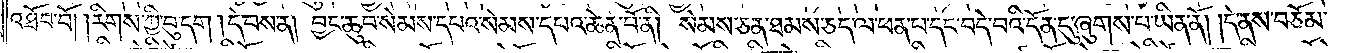འཐོབ་བོ། །རིགས་ཀྱི་བུ་དག །དེ་བས་ན། བྱང་ཆུབ་སེམས་དཔའ་སེམས་དཔའ་ཆེན་པོ་ནི། སེམས་ཅན་ཐམས་ཅད་ལ་ཕན་པ་དང་བདེ་བའི་དོན་དུ་ཞུགས་པ་ཡིན་ནོ། །དེ་ནས་བཅོམ་
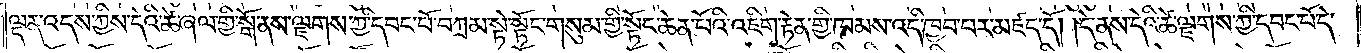ལྡན་འདས་ཀྱིས་དེའི་ཚེ་ཞལ་གྱི་སྒོ་ནས་ལྗགས་ཀྱི་དབང་པོ་བཀྲམ་སྟེ་སྟོང་གསུམ་གྱི་སྟོང་ཆེན་པོའི་འཇིག་རྟེན་གྱི་ཁམས་འདི་ཁྱབ་པར་མཛད་དོ། །དེ་ནས་དེའི་ཚེ་ལྗགས་ཀྱི་དབང་པོ་དེ་
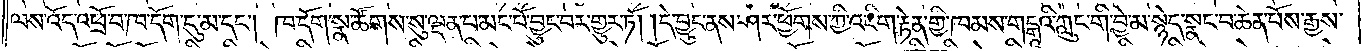ལས་འོད་འཕྲོ་བ་ཁ་དོག་དུ་མ་དང༌། ཁ་དོག་སྣ་ཚོགས་སུ་ལྡན་པ་མང་པོ་བྱུང་བར་གྱུར་ཏོ། །དེ་བྱུང་ནས་ཤར་ཕྱོགས་ཀྱི་འཇིག་རྟེན་གྱི་ཁམས་གངྒཱའི་ཀླུང་གི་བྱེ་མ་སྙེད་སྣང་བ་ཆེན་པོས་རྒྱས་
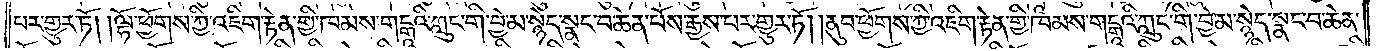པར་གྱུར་ཏོ། །ལྷོ་ཕྱོགས་ཀྱི་འཇིག་རྟེན་གྱི་ཁམས་གངྒཱའི་ཀླུང་གི་བྱེ་མ་སྙེད་སྣང་བ་ཆེན་པོས་རྒྱས་པར་གྱུར་ཏོ། །ནུབ་ཕྱོགས་ཀྱི་འཇིག་རྟེན་གྱི་ཁམས་གངྒཱའི་ཀླུང་གི་བྱེ་མ་སྙེད་སྣང་བ་ཆེན་
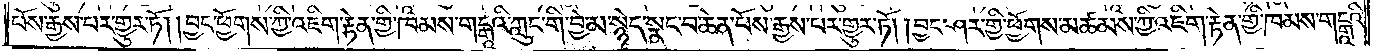པོས་རྒྱས་པར་གྱུར་ཏོ། །བྱང་ཕྱོགས་ཀྱི་འཇིག་རྟེན་གྱི་ཁམས་གངྒཱའི་ཀླུང་གི་བྱེ་མ་སྙེད་སྣང་བ་ཆེན་པོས་རྒྱས་པར་གྱུར་ཏོ། །བྱང་ཤར་གྱི་ཕྱོགས་མཚམས་ཀྱི་འཇིག་རྟེན་གྱི་ཁམས་གངྒཱའི་
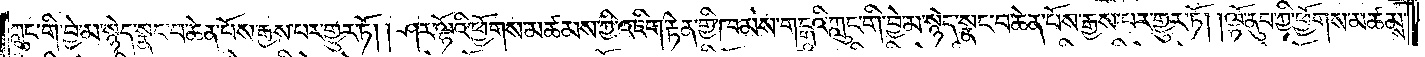ཀླུང་གི་བྱེ་མ་སྙེད་སྣང་བ་ཆེན་པོས་རྒྱས་པར་གྱུར་ཏོ། །ཤར་ལྷོའི་ཕྱོགས་མཚམས་ཀྱི་འཇིག་རྟེན་གྱི་ཁམས་གངྒཱའི་ཀླུང་གི་བྱེ་མ་སྙེད་སྣང་བ་ཆེན་པོས་རྒྱས་པར་གྱུར་ཏོ། །ལྷོ་ནུབ་ཀྱི་ཕྱོགས་མཚམས་
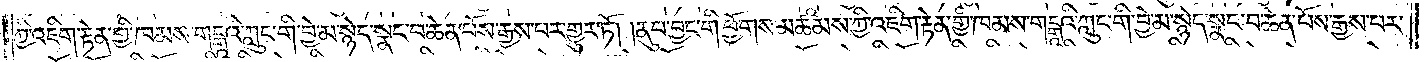ཀྱི་འཇིག་རྟེན་གྱི་ཁམས་གངྒཱའི་ཀླུང་གི་བྱེ་མ་སྙེད་སྣང་བ་ཆེན་པོས་རྒྱས་པར་གྱུར་ཏོ། །ནུབ་བྱང་གི་ཕྱོགས་མཚམས་ཀྱི་འཇིག་རྟེན་གྱི་ཁམས་གངྒཱའི་ཀླུང་གི་བྱེ་མ་སྙེད་སྣང་བ་ཆེན་པོས་རྒྱས་པར་
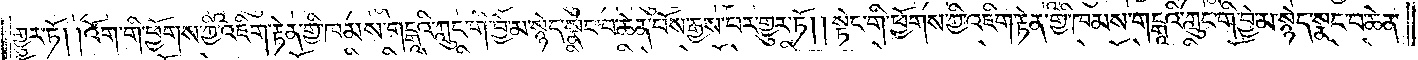གྱུར་ཏོ། །འོག་གི་ཕྱོགས་ཀྱི་འཇིག་རྟེན་གྱི་ཁམས་གངྒཱའི་ཀླུང་གི་བྱེ་མ་སྙེད་སྣང་བ་ཆེན་པོས་རྒྱས་པར་གྱུར་ཏོ། །སྟེང་གི་ཕྱོགས་ཀྱི་འཇིག་རྟེན་གྱི་ཁམས་གངྒཱའི་ཀླུང་གི་བྱེ་མ་སྙེད་སྣང་བ་ཆེན་
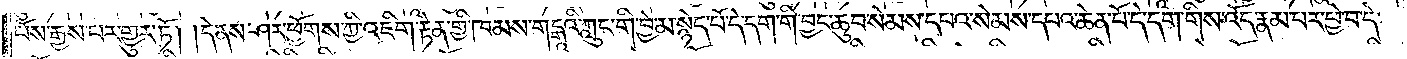པོས་རྒྱས་པར་གྱུར་ཏོ། །དེ་ནས་ཤར་ཕྱོགས་ཀྱི་འཇིག་རྟེན་གྱི་ཁམས་གངྒཱའི་ཀླུང་གི་བྱེ་མ་སྙེད་པོ་དེ་དག་གི་བྱང་ཆུབ་སེམས་དཔའ་སེམས་དཔའ་ཆེན་པོ་དེ་དག་གིས་འོད་རྣམ་པར་ཕྱེ་བ་དེ་
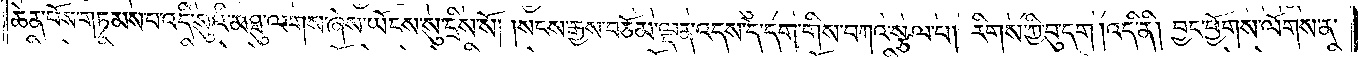ཆེན་པོས་གཏམས་པ་འདི་སུའི་མཐུ་ལགས་ཞེས་ཡོངས་སུ་དྲིས་སོ། །སངས་རྒྱས་བཅོམ་ལྡན་འདས་དེ་དག་གིས་བཀའ་སྩལ་པ། རིགས་ཀྱི་བུ་དག །འདི་ནི། བྱང་ཕྱོགས་ལོགས་ན་
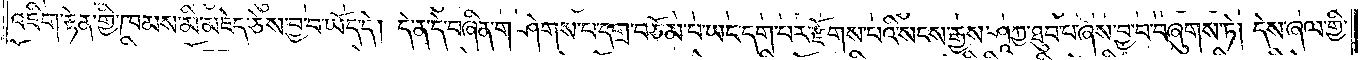འཇིག་རྟེན་གྱི་ཁམས་མི་མཇེད་ཅེས་བྱ་བ་ཡོད་དེ། དེ་ན་དེ་བཞིན་གཤེགས་པ་དགྲ་བཅོམ་པ་ཡང་དག་པར་རྫོགས་པའི་སངས་རྒྱས་ཤཱཀྱ་ཐུབ་པ་ཞེས་བྱ་བ་བཞུགས་ཏེ། དེས་ཞལ་གྱི་
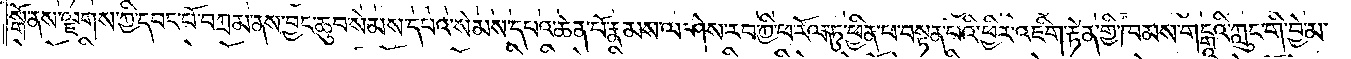སྒོ་ནས་ལྗགས་ཀྱི་དབང་པོ་བཀྲམ་ནས་བྱང་ཆུབ་སེམས་དཔའ་སེམས་དཔའ་ཆེན་པོ་རྣམས་ལ་ཤེས་རབ་ཀྱི་ཕ་རོལ་ཏུ་ཕྱིན་པ་བསྟན་པའི་ཕྱིར་འཇིག་རྟེན་གྱི་ཁམས་གངྒཱའི་ཀླུང་གི་བྱེ་མ་
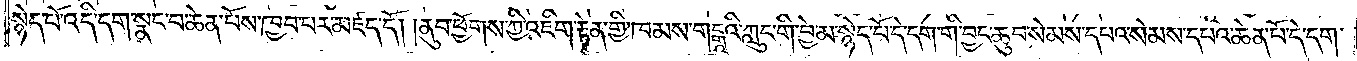སྙེད་པོ་འདི་དག་སྣང་བ་ཆེན་པོས་ཁྱབ་པར་མཛད་དོ། །ནུབ་ཕྱོགས་ཀྱི་འཇིག་རྟེན་གྱི་ཁམས་གངྒཱའི་ཀླུང་གི་བྱེ་མ་སྙེད་པོ་དེ་དག་གི་བྱང་ཆུབ་སེམས་དཔའ་སེམས་དཔའ་ཆེན་པོ་དེ་དག་
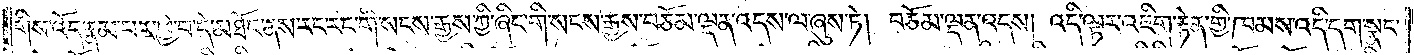གིས་འོད་རྣམ་པར་ཕྱེ་བ་དེ་མཐོང་ནས་རང་རང་གི་སངས་རྒྱས་ཀྱི་ཞིང་གི་སངས་རྒྱས་བཅོམ་ལྡན་འདས་ལ་ཞུས་ཏེ། བཅོམ་ལྡན་འདས། འདི་ལྟར་འཇིག་རྟེན་གྱི་ཁམས་འདི་དག་སྣང་
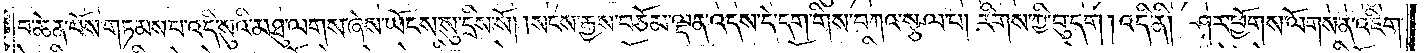བ་ཆེན་པོས་གཏམས་པ་འདི་སུའི་མཐུ་ལགས་ཞེས་ཡོངས་སུ་དྲིས་སོ། །སངས་རྒྱས་བཅོམ་ལྡན་འདས་དེ་དག་གིས་བཀའ་སྩལ་པ། རིགས་ཀྱི་བུ་དག །འདི་ནི། ཤར་ཕྱོགས་ལོགས་ན་འཇིག་
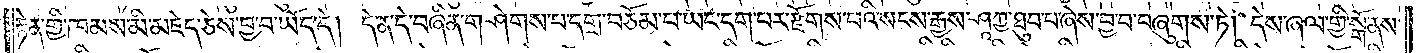རྟེན་གྱི་ཁམས་མི་མཇེད་ཅེས་བྱ་བ་ཡོད་དེ། དེ་ན་དེ་བཞིན་གཤེགས་པ་དགྲ་བཅོམ་པ་ཡང་དག་པར་རྫོགས་པའི་སངས་རྒྱས་ཤཱཀྱ་ཐུབ་པ་ཞེས་བྱ་བ་བཞུགས་ཏེ། དེས་ཞལ་གྱི་སྒོ་ནས་
